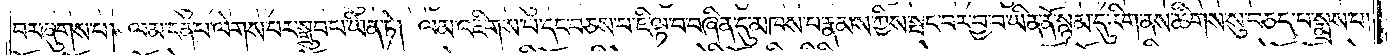བར་ཞུགས་པ། ལམ་ངན་པ་ལེགས་པར་སྒྲུབ་པ་ཡིན་ཏེ། ལམ་འཇིགས་པ་དང་བཅས་པ་ཇི་ལྟ་བ་བཞིན་དུ་མཁས་པ་རྣམས་ཀྱིས་སྤང་བར་བྱ་བ་ཡིན་ནོ་སྙམ་དུ་རིག་ནས་ཚིགས་སུ་བཅད་པ་སྨྲས་པ།
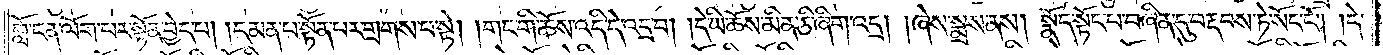བློ་ངན་ལོག་པར་སྟོན་བྱེད་པ། །དམན་པ་སྟོན་པར་གྲགས་པ་སྟེ། །གང་གི་ཆོས་འདི་དེ་འདྲ་བ། །དེ་ཡི་ཆོས་མིན་ཅི་ཞིག་འདྲ། །ཞེས་སྨྲས་ནས། སྣོད་སྟོང་པ་བཞིན་དུ་བརྡབས་ཏེ་སོང་ངོ༌། །དེ་
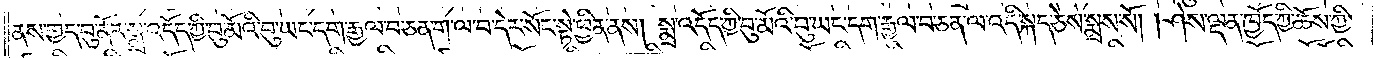ནས་གྱད་བུ་ནོར་སྨྲ་འདོད་ཀྱི་བུ་མོའི་བུ་ཡང་དག་རྒྱལ་བ་ཅན་ག་ལ་བ་དེར་སོང་སྟེ་ཕྱིན་ནས། སྨྲ་འདོད་ཀྱི་བུ་མོའི་བུ་ཡང་དག་རྒྱལ་བ་ཅན་ལ་འདི་སྐད་ཅེས་སྨྲས་སོ། །ཤེས་ལྡན་ཁྱོད་ཀྱི་ཆོས་ཀྱི་
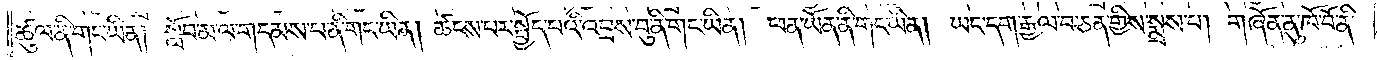ཚུལ་ནི་གང་ཡིན། སློབ་མ་ལ་གདམས་པ་ནི་གང་ཡིན། ཚངས་པར་སྤྱོད་པའི་འབྲས་བུ་ནི་གང་ཡིན། ཕན་ཡོན་ནི་གང་ཡིན། ཡང་དག་རྒྱལ་བ་ཅན་གྱིས་སྨྲས་པ། གཞོན་ནུ་ཁོ་བོ་ནི་
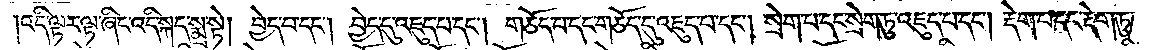།འདི་ལྟར་ལྟ་ཞིང་འདི་སྐད་སྨྲ་སྟེ། བྱེད་པ་དང༌། བྱེད་དུ་འཇུད་པ་དང༌། གཅོད་པ་དང་གཅོད་དུ་འཇུད་པ་དང༌། སྲེག་པ་དང་སྲེག་ཏུ་འཇུད་པ་དང༌། རྡེག་པ་དང་རྡེག་ཏུ་
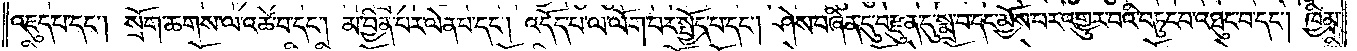འཇུད་པ་དང༌། སྲོག་ཆགས་ལ་འཚེ་བ་དང༌། མ་བྱིན་པར་ལེན་པ་དང༌། འདོད་པ་ལ་ལོག་པར་སྤྱོད་པ་དང༌། ཤེས་བཞིན་དུ་བརྫུན་དུ་སྨྲ་བ་དང་མྱོས་པར་འགྱུར་བའི་བཏུང་བ་འཐུང་བ་དང༌། ཁྱིམ་
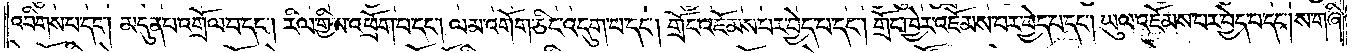འབིགས་པ་དང༌། མདུན་པ་འགྲོལ་བ་དང༌། རིལ་གྱིས་འཕྲོག་པ་དང༌། ལམ་འགོག་ཅིང་འདུག་པ་དང༌། གྲོང་འཇོམས་པར་བྱེད་པ་དང༌། གྲོང་ཁྱེར་འཇོམས་པར་བྱེད་པ་དང༌། ཡུལ་འཇོམས་པར་བྱེད་པ་དང༌། ས་གཞི་
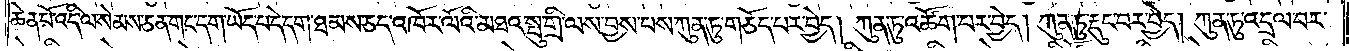ཆེན་པོ་འདི་ལ་སེམས་ཅན་གང་དག་ཡོད་པ་དེ་དག་ཐམས་ཅད་འཁོར་ལོའི་མཐའ་སྤུ་གྲི་ལས་བྱས་པས་ཀུན་ཏུ་གཅོད་པར་བྱེད། ཀུན་ཏུ་འཚོག་པར་བྱེད། ཀུན་ཏུ་རྡུང་བར་བྱེད། ཀུན་ཏུ་འདྲལ་བར་
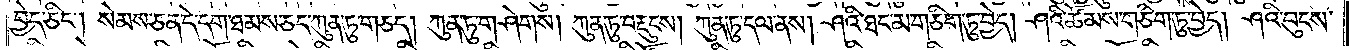བྱེད་ཅིང༌། སེམས་ཅན་དེ་དག་ཐམས་ཅད་ཀུན་ཏུ་གཅད། ཀུན་ཏུ་གཤེགས། ཀུན་ཏུ་བརྡུངས། ཀུན་ཏུ་དལ་ནས། ཤའི་ཐང་མ་གཅིག་ཏུ་བྱེད། ཤའི་ཚོམས་གཅིག་ཏུ་བྱེད། ཤའི་བུངས་
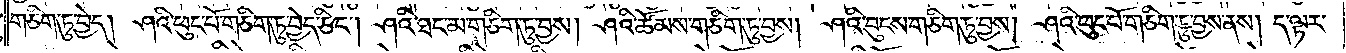གཅིག་ཏུ་བྱེད། ཤའི་ཕུང་པོ་གཅིག་ཏུ་བྱེད་ཅིང༌། ཤའི་ཐང་མ་གཅིག་ཏུ་བྱས། ཤའི་ཚོམས་གཅིག་ཏུ་བྱས། ཤའི་བུངས་གཅིག་ཏུ་བྱས། ཤའི་ཕུང་པོ་གཅིག་ཏུ་བྱས་ནས། ད་ལྟར་
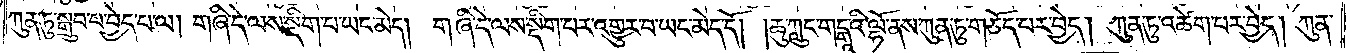ཀུན་ཏུ་སྒྲུབ་པ་བྱེད་པ་ལ། གཞི་དེ་ལས་སྡིག་པ་ཡང་མེད། གཞི་དེ་ལས་སྡིག་པར་འགྱུར་བ་ཡང་མེད་དོ། །ཆུ་ཀླུང་གངྒཱའི་ལྷོ་ནས་ཀུན་ཏུ་གཅོད་པར་བྱེད། ཀུན་ཏུ་འཚེག་པར་བྱེད། ཀུན་
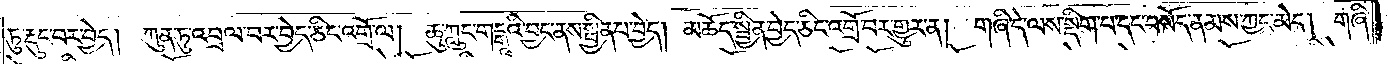ཏུ་རྡུང་བར་བྱེད།  ཀུན་ཏུ་འབྲལ་བར་བྱེད་ཅིང་འགྲོ་ལ།  ཆུ་ཀླུང་གངྒཱའི་བྱང་ནས་སྦྱིན་པ་བྱེད། མཆོད་སྦྱིན་བྱེད་ཅིང་འགྲོ་བར་གྱུར་ན། གཞི་དེ་ལས་སྡིག་པ་དང་བསོད་ནམས་ཀྱང་མེད། གཞི་
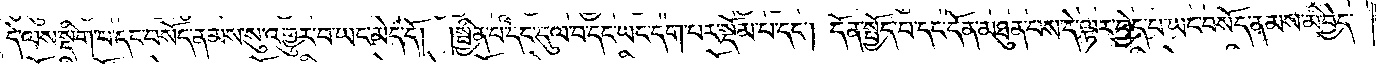དེ་ལས་སྡིག་པ་དང་བསོད་ནམས་སུ་འགྱུར་བ་ཡང་མེད་དོ། །སྦྱིན་པ་དང་དུལ་བ་དང་ཡང་དག་པར་སྡོམ་པ་དང༌། དོན་སྤྱོད་པ་དང་དོན་མཐུན་པས་དེ་ལྟར་བྱེད་པ་ཡང་བསོད་ནམས་མི་བྱེད་
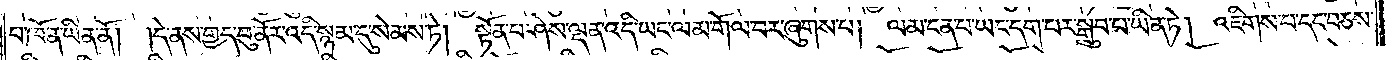པ་ཁོ་ན་ཡིན་ནོ། །དེ་ནས་གྱད་བུ་ནོར་འདི་སྙམ་དུ་སེམས་ཏེ། སྟོན་པ་ཤེས་ལྡན་འདི་ཡང་ལམ་གོལ་བར་ཞུགས་པ། ལམ་ངན་པ་ཡང་དག་པར་སྒྲུབ་པ་ཡིན་ཏེ། འཇིགས་པ་དང་བཅས་
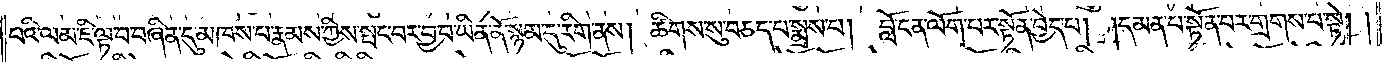པའི་ལམ་ཇི་ལྟ་བ་བཞིན་དུ་མཁས་པ་རྣམས་ཀྱིས་སྤང་བར་བྱ་བ་ཡིན་ནོ་སྙམ་དུ་རིག་ནས། ཚིགས་སུ་བཅད་པ་སྨྲས་པ། བློ་ངན་ལོག་པར་སྟོན་བྱེད་པ། །དམན་པ་སྟོན་པར་གྲགས་པ་སྟེ། །
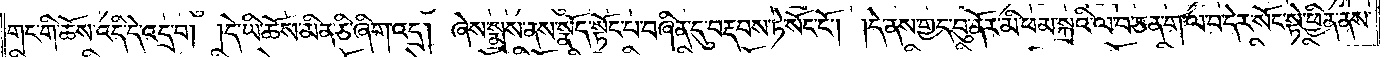གང་གི་ཆོས་འདི་དེ་འདྲ་བ། །དེ་ཡི་ཆོས་མིན་ཅི་ཞིག་འདྲ། ཞེས་སྨྲས་ནས་སྣོད་སྟོང་པ་བཞིན་དུ་བརྡབས་ཏེ་སོང་ངོ༌། །དེ་ནས་གྱད་བུ་ནོར་མི་ཕམ་སྐྲའི་ལ་བ་ཅན་ག་ལ་བ་དེར་སོང་སྟེ་ཕྱིན་ནས་
